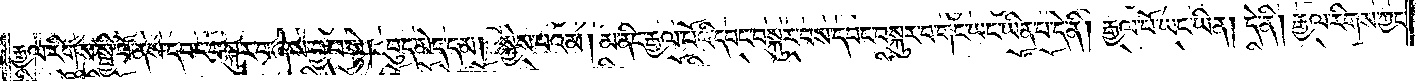རྒྱལ་རིགས་སྤྱི་བོ་ནས་དབང་བསྐུར་བ་ཞེས་བྱ་བ་སྟེ། བུད་མེད་དམ། སྐྱེས་པའམ། མ་ནིང་རྒྱལ་པོའི་དབང་བསྐུར་བས་དབང་བསྐུར་བ་གང་ཡང་ཡིན་པ་དེ་ནི། རྒྱལ་པོ་ཡང་ཡིན། དེ་ནི། རྒྱལ་རིགས་ཀྱང་
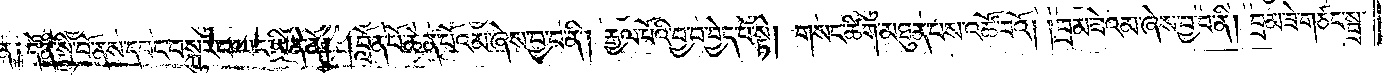ན༑ དེ་ནི་སྤྱི་བོ་ནས་དབང་བསྐུར་བ་ཡང་ཡིན་ནོ། །བློན་པོ་ཆེན་པོའམ་ཞེས་བྱ་བ་ནི། རྒྱལ་པོའི་བྱ་བ་བྱེད་པ་སྟེ། གསང་ཚིག་མཐུན་པས་འཚོ་བའོ། །བྲམ་ཟེའམ་ཞེས་བྱ་བ་ནི། བྲམ་ཟེ་གཙང་སྦྲ་
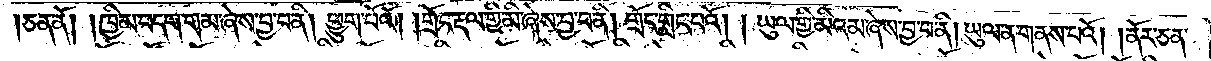ཅན་ནོ། །ཁྱིམ་བདག་གམ་ཞེས་བྱ་བ་ནི། ཕྱུག་པོའོ། །གྲོང་རྡལ་གྱི་མི་ཞེས་བྱ་བ་ནི། གྲོང་གླིང་པའོ། ། ཡུལ་གྱི་མིའམ་ཞེས་བྱ་བ་ནི། ཡུལ་ནག་གནས་པའོ། །ནོར་ཅན་
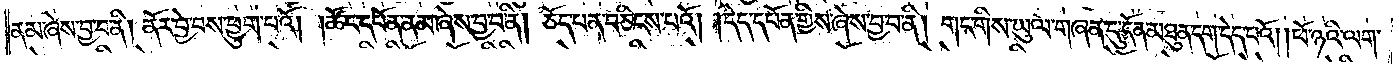ནམ་ཞེས་བྱ་བ་ནི། ནོར་བྱེ་བས་ཕྱུག་པའོ། །ཚོང་དཔོན་ནམ་ཞེས་བྱ་བ་ནི། ཅོད་པན་བཅིངས་པའོ། །དེད་དཔོན་གྱིས་ཞེས་བྱ་བ་ནི། གང་གིས་ཡུལ་གཞན་དུ་དོན་མཐུན་དག་དེད་པའོ། །ཕོ་ཉའི་ལག་
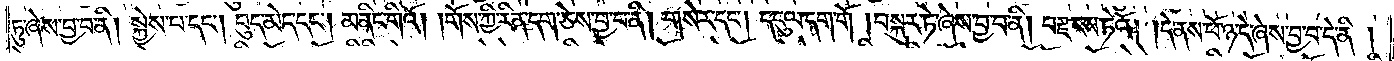ཏུ་ཞེས་བྱ་བ་ནི། སྐྱེས་པ་དང༌། བུད་མེད་དང༌། མ་ནིང་གིའོ། །གོས་ཀྱི་རིན་དག་ཅེས་བྱ་བ་ནི། གསེར་དང༌། དངུལ་དག་གོ། །བསྐུར་ཏེ་ཞེས་བྱ་བ་ནི། བརྫངས་ཏེའོ། །དེ་ནས་ཕོ་ཉ་དེ་ཞེས་བྱ་བ་དེ་ནི །
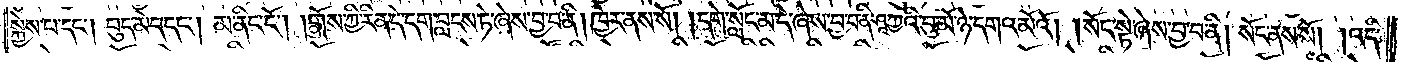སྐྱེས་པ་དང༌། བུད་མེད་དང༌། མ་ནིང་ངོ༌། །གོས་ཀྱི་རིན་དེ་དག་བླངས་ཏེ་ཞེས་བྱ་བ་ནི། ཁྱེར་ནས་སོ། །དགེ་སློང་མ་དེ་ཞེས་བྱ་བ་ནི་ཤཱཀྱའི་བུ་མོ་ཉེ་དགའ་མོའོ། །སོང་སྟེ་ཞེས་བྱ་བ་ནི། སོང་ནས་སོ། །འདི་
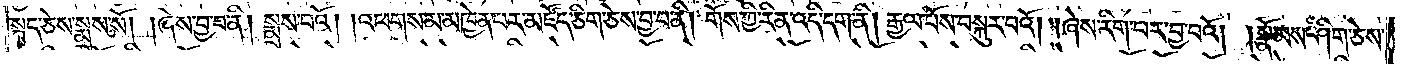སྐད་ཅེས་སྨྲས་སོ། །ཞེས་བྱ་བ་ནི། སྨྲས་པའོ། །འཕགས་མ་མཁྱེན་པར་མཛོད་ཅིག་ཅེས་བྱ་བ་ནི། གོས་ཀྱི་རིན་འདི་དག་ནི། རྒྱལ་པོས་བསྐུར་བའོ། །ཞེས་རིག་པར་བྱ་བའོ། །སྣོམས་ཤིག་ཅེས་
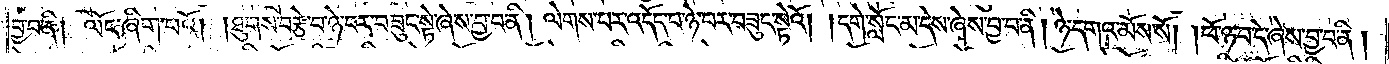བྱ་བ་ནི། ལོང་ཞིག་པའོ། །ཐུགས་བརྩེ་བ་ཉེ་བར་བཟུང་སྟེ་ཞེས་བྱ་བ་ནི། ལེགས་པར་འདོད་པ་ཉེ་བར་བཟུང་སྟེའོ། །དགེ་སློང་མ་དེས་ཞེས་བྱ་བ་ནི། ཉེ་དགའ་མོས་སོ། །ཕོ་ཉ་བ་དེ་ཞེས་བྱ་བ་ནི།
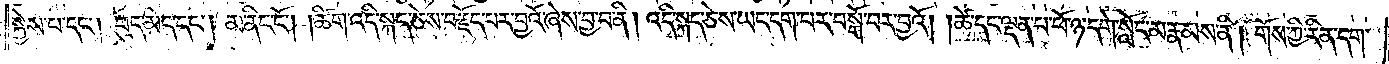སྐྱེས་པ་དང༌། བུད་མེད་དང༌། མ་ནིང་ངོ༌། །ཚིག་འདི་སྐད་ཅེས་བརྗོད་པར་བྱའོ་ཞེས་བྱ་བ་ནི། འདི་སྐད་ཅེས་ཡང་དག་པར་བསྒོ་བར་བྱའོ། །ཚེ་དང་ལྡན་པ་ཕོ་ཉ་དགེ་སློང་མ་རྣམས་ནི། གོས་ཀྱི་རིན་དག་
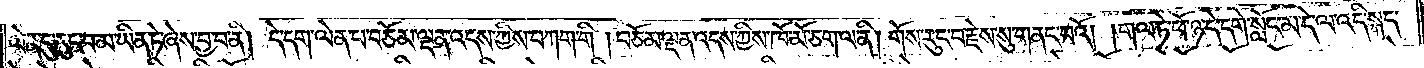ལེན་དུ་རུང་བ་མ་ཡིན་ཏེ་ཞེས་བྱ་བ་ནི། དེ་དག་ལེན་པ་བཅོམ་ལྡན་འདས་ཀྱིས་བཀག་གི །བཅོམ་ལྡན་འདས་ཀྱིས་ཁོ་མོ་ཅག་ལ་ནི། གོས་རུང་བ་རྗེས་སུ་གནང་བའོ། །གལ་ཏེ་ཕོ་ཉ་དེ་དགེ་སློང་མ་དེ་ལ་འདི་སྐད་
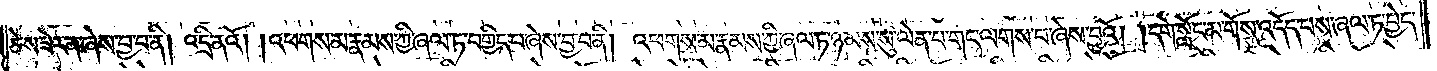ཅེས་ཟེར་ན་ཞེས་བྱ་བ་ནི། འདྲི་ནའོ། །འཕགས་མ་རྣམས་ཀྱི་ཞལ་ཏ་བགྱིད་པ་ཞེས་བྱ་བ་ནི། འཕགས་མ་རྣམས་ཀྱི་ཞལ་ཏ་ཉམས་སུ་ལེན་པ་གང་ལགས་པ་ཞེས་བྱའོ། །དགེ་སློང་མ་གོས་འདོད་པས་ཞལ་ཏ་བྱེད་
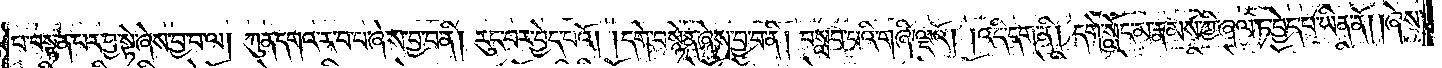པ་བསྟན་པར་བྱ་སྟེ་ཞེས་བྱ་བ་ལ། ཀུན་དགའ་ར་བ་པ་ཞེས་བྱ་བ་ནི། རུང་བར་བྱེད་པའོ། །དགེ་བསྙེན་ཞེས་བྱ་བ་ནི། བསླབ་པའི་གཞི་ལྔའོ། །འདི་དག་ནི། དགེ་སློང་མ་རྣམས་ཀྱིས་ཞལ་ཏ་བྱེད་པ་ཡིན་ནོ། །ཞེས་
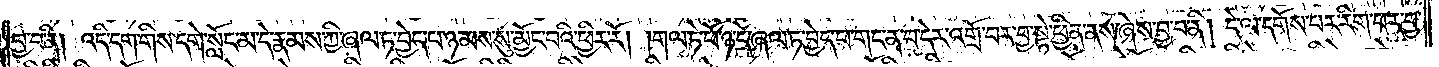བྱ་བ་ནི། འདི་དག་གིས་དགེ་སློང་མ་དེ་རྣམས་ཀྱི་ཞལ་ཏ་བྱེད་པ་ཉམས་སུ་མྱོང་བའི་ཕྱིར་རོ། །གལ་ཏེ་ཕོ་ཉ་དེ་ཞལ་ཏ་བྱེད་པ་གང་ན་བ་དེར་འགྲོ་བར་བྱ་སྟེ་ཕྱིན་ནས་ཞེས་བྱ་བ་ནི། དེ་ལ་དགོས་པར་རིག་པར་བྱ་
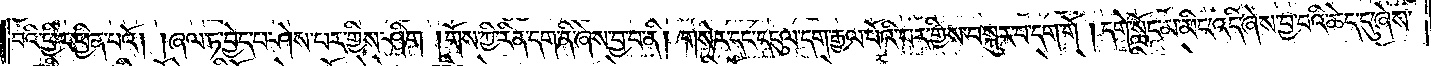བའི་ཕྱིར་ཕྱིན་པའོ། །ཞལ་ཏ་བྱེད་པ་ཤེས་པར་གྱིས་ཤིག །གོས་ཀྱི་རིན་དག་ནི་ཞེས་བྱ་བ་ནི། གསེར་དང་དངུལ་དག་རྒྱལ་པོའི་བར་གྱིས་བསྐུར་བ་དག་གོ། དགེ་སློང་མ་མིང་འདི་ཞེས་བྱ་བའི་ཆེད་དུ་ཞེས་
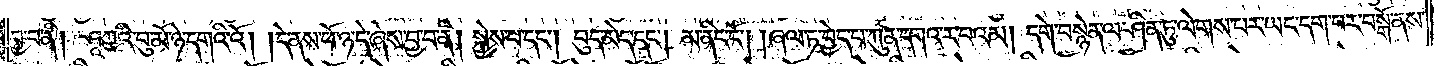བྱ་བ་ནི། ཤཱཀྱའི་བུ་མོ་ཉེ་དགའི་འོ། །དེ་ནས་ཕོ་ཉ་དེ་ཞེས་བྱ་བ་ནི། སྐྱེས་པ་དང༌། བུད་མེད་དང༌། མ་ནིང་ངོ༌། །ཞལ་ཏ་བྱེད་པ་ཀུན་དགའ་ར་བའམ། དགེ་བསྙེན་ལ་ཤིན་ཏུ་ལེགས་པར་ཡང་དག་པར་བསྒོ་ནས་
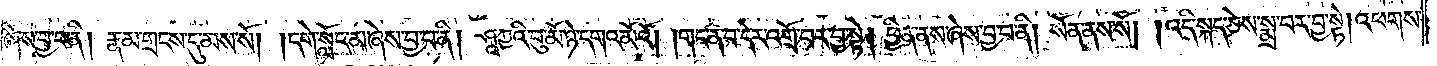ཞེས་བྱ་བ་ནི། རྣམ་གྲངས་དུ་མས་སོ། །དགེ་སློང་མ་ཞེས་བྱ་བ་ནི། ཤཱཀྱའི་བུ་མོ་ཉེ་དགའ་མོའོ། །གང་ན་བ་དེར་འགྲོ་བ་བྱ་སྟེ། ཕྱིན་ནས་ཞེས་བྱ་བ་ནི། སོན་ནས་སོ། །འདི་སྐད་ཅེས་སྨྲ་བར་བྱ་སྟེ། འཕགས་
